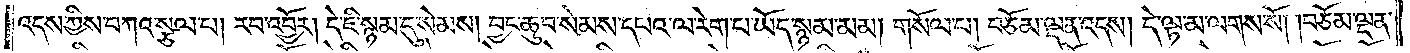འདས་ཀྱིས་བཀའ་སྩལ་པ། རབ་འབྱོར། དེ་ཇི་སྙམ་དུ་སེམས། བྱང་ཆུབ་སེམས་དཔའ་ལ་རེག་པ་ཡོད་སྙམ་མམ། གསོལ་པ། བཅོམ་ལྡན་འདས། དེ་ལྟ་མ་ལགས་སོ། །བཅོམ་ལྡན་
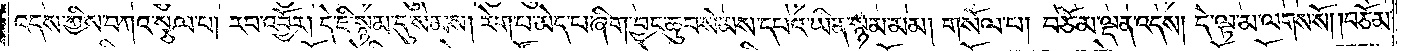འདས་ཀྱིས་བཀའ་སྩལ་པ། རབ་འབྱོར། དེ་ཇི་སྙམ་དུ་སེམས། རེག་པ་མེད་པ་ཞིག་བྱང་ཆུབ་སེམས་དཔའ་ཡིན་སྙམ་མམ། གསོལ་པ། བཅོམ་ལྡན་འདས། དེ་ལྟ་མ་ལགས་སོ། །བཅོམ་
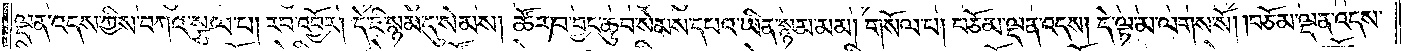ལྡན་འདས་ཀྱིས་བཀའ་སྩལ་པ། རབ་འབྱོར། དེ་ཇི་སྙམ་དུ་སེམས། ཚོར་བ་བྱང་ཆུབ་སེམས་དཔའ་ཡིན་སྙམ་མམ། གསོལ་པ། བཅོམ་ལྡན་འདས། དེ་ལྟ་མ་ལགས་སོ། །བཅོམ་ལྡན་འདས་
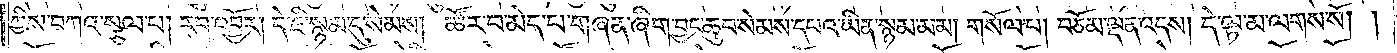ཀྱིས་བཀའ་སྩལ་པ། རབ་འབྱོར། དེ་ཇི་སྙམ་དུ་སེམས། ཚོར་བ་མེད་པ་གཞན་ཞིག་བྱང་ཆུབ་སེམས་དཔའ་ཡིན་སྙམ་མམ། གསོལ་པ། བཅོམ་ལྡན་འདས། དེ་ལྟ་མ་ལགས་སོ། །
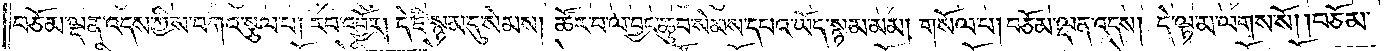བཅོམ་ལྡན་འདས་ཀྱིས་བཀའ་སྩལ་པ། རབ་འབྱོར། དེ་ཇི་སྙམ་དུ་སེམས། ཚོར་བ་ལ་བྱང་ཆུབ་སེམས་དཔའ་ཡོད་སྙམ་མམ། གསོལ་པ། བཅོམ་ལྡན་འདས། དེ་ལྟ་མ་ལགས་སོ། །བཅོམ་
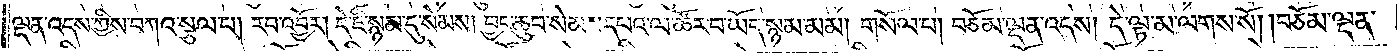ལྡན་འདས་ཀྱིས་བཀའ་སྩལ་པ། རབ་འབྱོར། དེ་ཇི་སྙམ་དུ་སེམས། བྱང་ཆུབ་སེམས་དཔའ་ལ་ཚོར་བ་ཡོད་སྙམ་མམ། གསོལ་པ། བཅོམ་ལྡན་འདས། དེ་ལྟ་མ་ལགས་སོ། །བཅོམ་ལྡན་
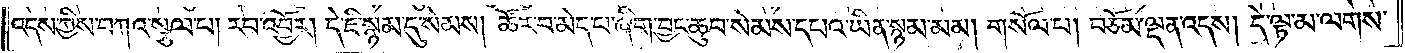འདས་ཀྱིས་བཀའ་སྩལ་པ། རབ་འབྱོར། དེ་ཇི་སྙམ་དུ་སེམས། ཚོར་བ་མེད་པ་ཞིག་བྱང་ཆུབ་སེམས་དཔའ་ཡིན་སྙམ་མམ། གསོལ་པ། བཅོམ་ལྡན་འདས། དེ་ལྟ་མ་ལགས་
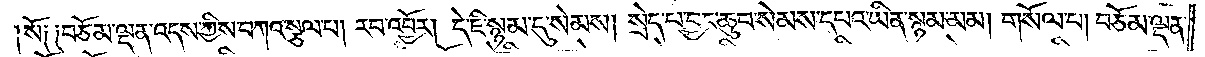སོ༑ ༑བཅོམ་ལྡན་འདས་ཀྱིས་བཀའ་སྩལ་པ། རབ་འབྱོར། དེ་ཇི་སྙམ་དུ་སེམས། སྲེད་པ་བྱང་ཆུབ་སེམས་དཔའ་ཡིན་སྙམ་མམ། གསོལ་པ། བཅོམ་ལྡན་
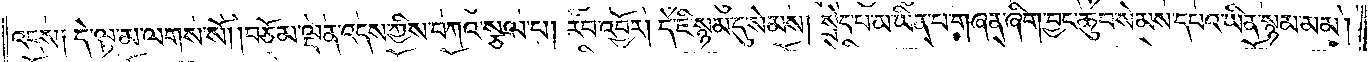འདས༑ དེ་ལྟ་མ་ལགས་སོ། །བཅོམ་ལྡན་འདས་ཀྱིས་བཀའ་སྩལ་པ། རབ་འབྱོར། དེ་ཇི་སྙམ་དུ་སེམས། སྲེད་པ་མ་ཡིན་པ་གཞན་ཞིག་བྱང་ཆུབ་སེམས་དཔའ་ཡིན་སྙམ་མམ།
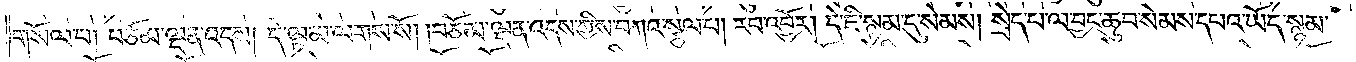གསོལ་པ། བཅོམ་ལྡན་འདས། དེ་ལྟ་མ་ལགས་སོ། །བཅོམ་ལྡན་འདས་ཀྱིས་བཀའ་སྩལ་པ། རབ་འབྱོར། དེ་ཇི་སྙམ་དུ་སེམས། སྲེད་པ་ལ་བྱང་ཆུབ་སེམས་དཔའ་ཡོད་སྙམ་
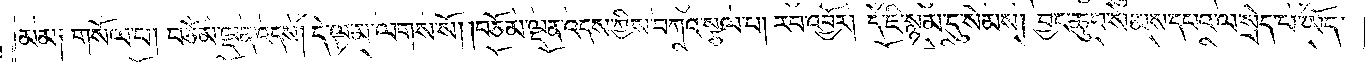མམ༑ གསོལ་པ། བཅོམ་ལྡན་འདས། དེ་ལྟ་མ་ལགས་སོ། །བཅོམ་ལྡན་འདས་ཀྱིས་བཀའ་སྩལ་པ། རབ་འབྱོར། དེ་ཇི་སྙམ་དུ་སེམས། བྱང་ཆུབ་སེམས་དཔའ་ལ་སྲེད་པ་ཡོད་
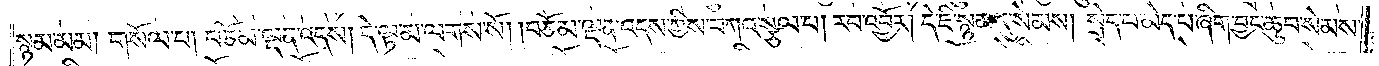སྙམ་མམ། གསོལ་པ། བཅོམ་ལྡན་འདས། དེ་ལྟ་མ་ལགས་སོ། །བཅོམ་ལྡན་འདས་ཀྱིས་བཀའ་སྩལ་པ། རབ་འབྱོར། དེ་ཇི་སྙམ་དུ་སེམས། སྲེད་པ་མེད་པ་ཞིག་བྱང་ཆུབ་སེམས་
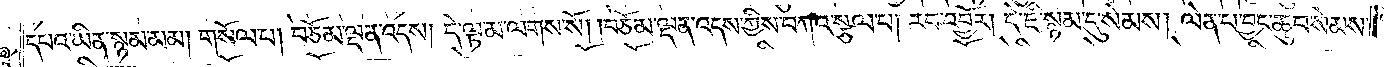དཔའ་ཡིན་སྙམ་མམ། གསོལ་པ། བཅོམ་ལྡན་འདས། དེ་ལྟ་མ་ལགས་སོ། །བཅོམ་ལྡན་འདས་ཀྱིས་བཀའ་སྩལ་པ། རབ་འབྱོར། དེ་ཇི་སྙམ་དུ་སེམས། ལེན་པ་བྱང་ཆུབ་སེམས་
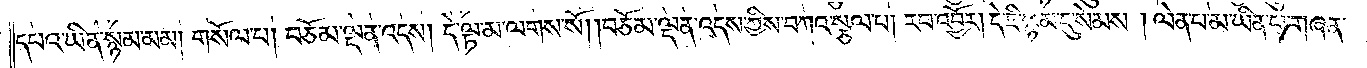དཔའ་ཡིན་སྙམ་མམ། གསོལ་པ། བཅོམ་ལྡན་འདས། དེ་ལྟ་མ་ལགས་སོ། །བཅོམ་ལྡན་འདས་ཀྱིས་བཀའ་སྩལ་པ། རབ་འབྱོར། དེ་ཇི་སྙམ་དུ་སེམས་།ལེན་པ་མ་ཡིན་པ་གཞན་
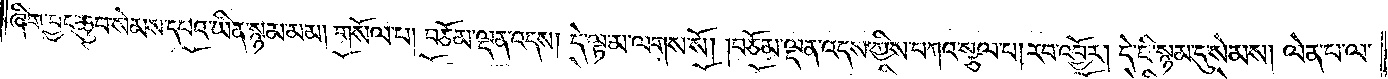ཞིག་བྱང་ཆུབ་སེམས་དཔའ་ཡིན་སྙམ་མམ། གསོལ་པ། བཅོམ་ལྡན་འདས། དེ་ལྟ་མ་ལགས་སོ། །བཅོམ་ལྡན་འདས་ཀྱིས་བཀའ་སྩལ་པ། རབ་འབྱོར། དེ་ཇི་སྙམ་དུ་སེམས། ལེན་པ་ལ་
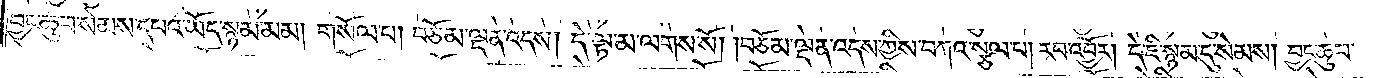བྱང་ཆུབ་སེམས་དཔའ་ཡོད་སྙམ་མམ། གསོལ་པ། བཅོམ་ལྡན་འདས། དེ་ལྟ་མ་ལགས་སོ། །བཅོམ་ལྡན་འདས་ཀྱིས་བཀའ་སྩལ་པ། རབ་འབྱོར། དེ་ཇི་སྙམ་དུ་སེམས། བྱང་ཆུབ་
